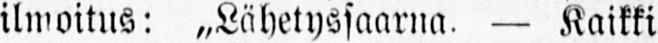ilmoitus: «Lähetyssaarna. — Kaikki
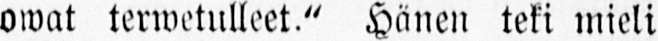owat terwetulleet." Hänen teki mieli
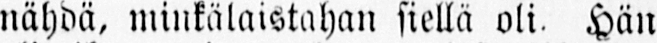nähdä, minkälaistahan siellä oli. Hän
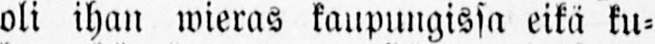oli ihan wieras kaupungissa eikä ku-
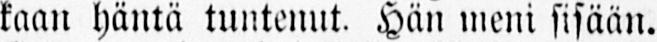kaan häntä tuntenut. Hän meni sisään.
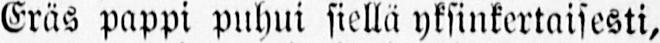Eräs pappi puhui siellä yksinkertaisesti,
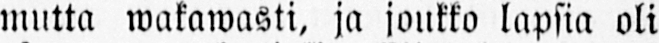mutta wakawasti, ja joukko lapsia oli
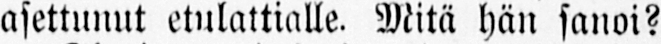asettunut etulattialle. Mitä hän sanoi?
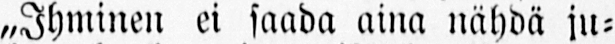„Ihminen ei saada aina nähdä ju-
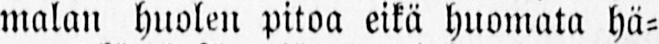malan huolen pitoa eikä huomata hä-
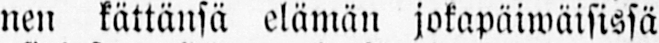nen kättänsä elämän jokapäiwäisissä
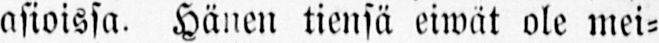asioissa. Hänen tiensä eiwät ole mei-
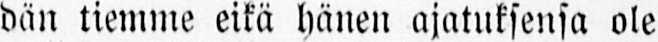dän tiemme eikä hänen ajatuksensa ole
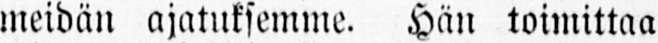meidän ajatuksemme. Hän toimittaa
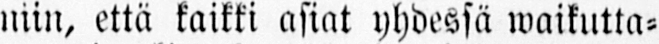niin, että kaikki asiat yhdessä waikutta-
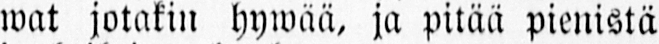wat jotakin hywää, ja pitää pienistä
